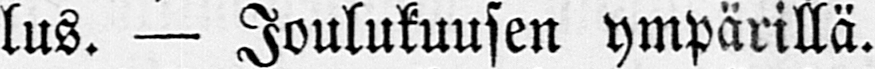lus. — Joulukuusen ympärillä.
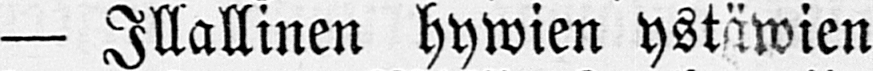— Illallinen hywien ystäwien
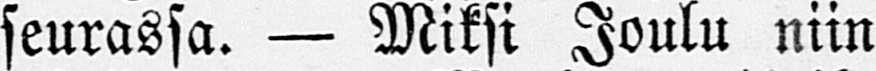seurassa. — Miksi Joulu niin
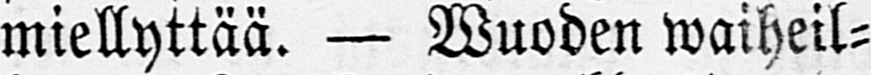miellyttää. — Wuoden waiheil-
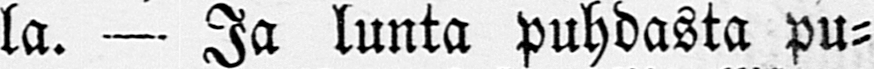la. — Ja lunta puhdasta pu-
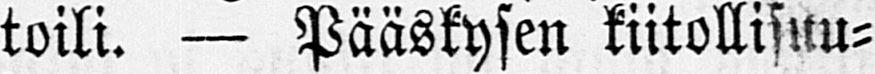toili. — Pääskysen kiitollisuu-
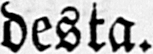desta.
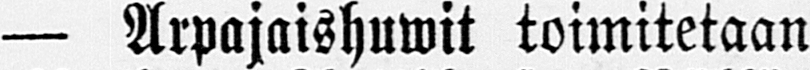— Arpajaishuwit toimitetaan
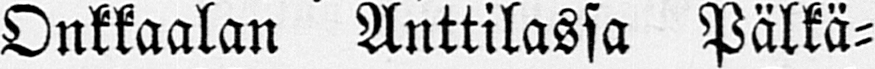Onkkaalan Anttilassa Pälkä-
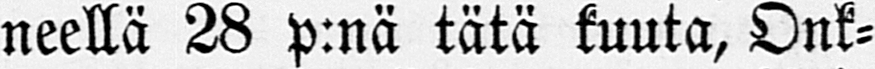neellä 28 p:nä tätä kuuta, Onk-
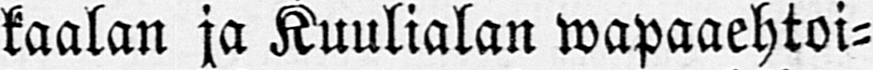kaalan ja Kuulialan wapaaehtoi-
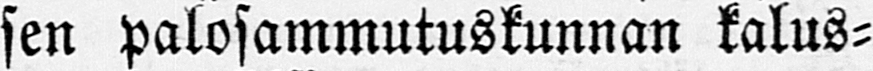sen palosammutuskunnan kalus-
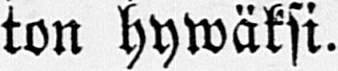ton hywäksi.
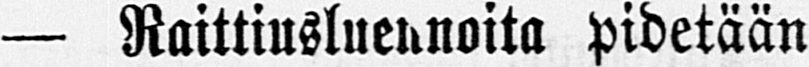— Raittiusluennoita pidetään
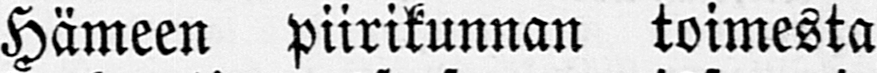Hämeen piirikunnan toimesta
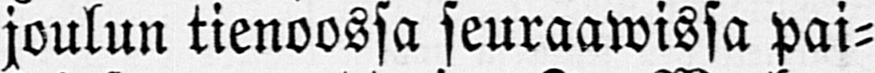joulun tienoossa seuraawissa pai-
